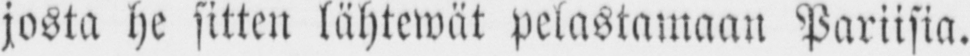josta he sitten lähtewät pelastamaan Pariisia.
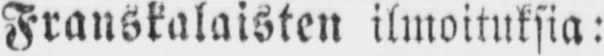Franskalaisten ilmoituksia:
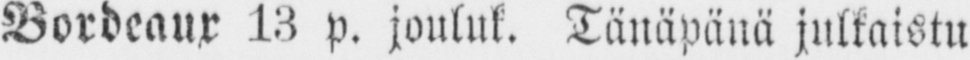Bordeaux 13 p. jouluk. Tänäpänä julkaistu
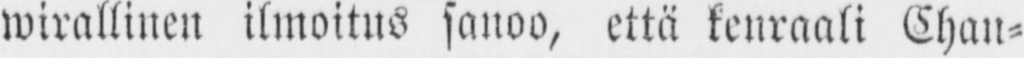wirallinen ilmoitus sanoo, että kenraali Chan-
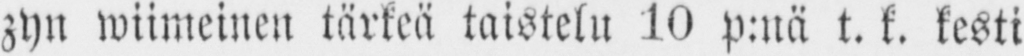zyn wiimeinen tärkeä taistelu 10 p:nä t. k. kesti
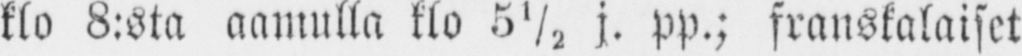klo 8:sta aamulla klo 5½ j. pp.; franskalaiset
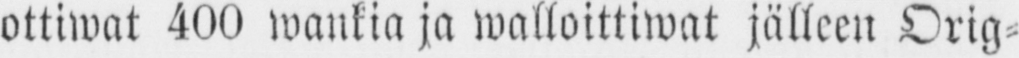ottiwat 400 wankia ja walloittiwat jälleen Orig-
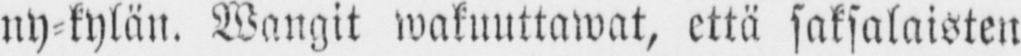ny-kylän. Wangit wakuuttawat, että saksalaisten
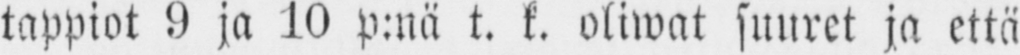tappiot 9 ja 10 p:nä t. k. oliwat suuret ja että
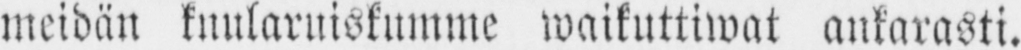meidän kuularuiskumme waikuttiwat ankarasti.
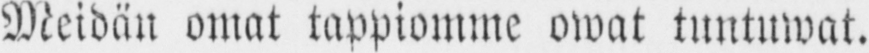Meidän omat tappiomme owat tuntuwat.
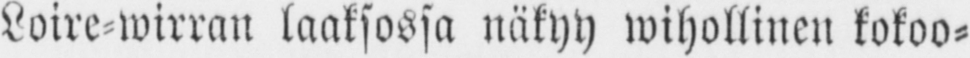Loire-wirran laaksossa näkyy wihollinen kokoo-
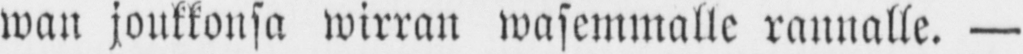man joukkonsa wirran wasemmalle rannalle. —
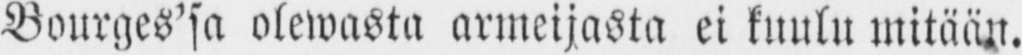Bourges'sa olewasta armeijasta ei kuulu mitään.
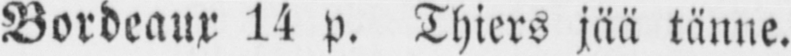Bordeaux 14 p. Thiers jää tänne.
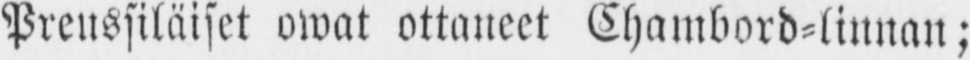Preussiläiset owat ottaneet Chambord-linnan;
